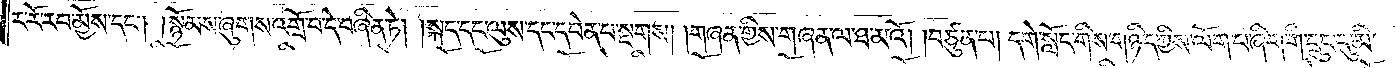ར་རོ་རབ་མྱོས་དང༌། །སྙོམས་ཞུགས་འགྲོ་བ་དེ་བཞིན་ཏེ། །སྐད་དང་ལུས་དང་དབེན་པ་སྔགས། །གཞན་གྱིས་གཞན་ལ་ཐ་མའོ། །བཙུན་པ། དགེ་སློང་གིས་གཉིད་ཀྱིས་ལོག་པ་ཞིག་གི་དྲུང་དུ་མི་
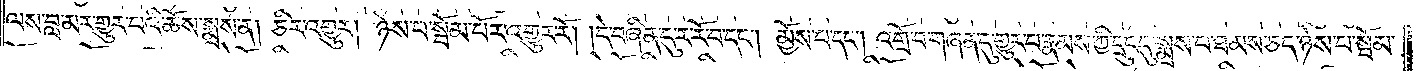ལས་བླ་མར་གྱུར་པའི་ཆོས་སྨྲས་ན། ཅིར་འགྱུར། ཉེས་པ་སྦོམ་པོར་འགྱུར་རོ། །དེ་བཞིན་དུ་ར་རོ་བ་དང༌། མྱོས་པ་དང༌། འགྲོ་བ་གཞན་དུ་གྱུར་པ་རྣམས་ཀྱི་དྲུང་དུ་སྨྲས་པ་ཐམས་ཅད་ཉེས་པ་སྦོམ་
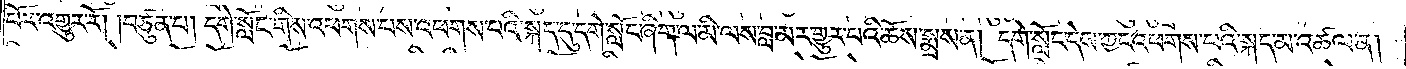པོར་འགྱུར་རོ། །བཙུན་པ། དགེ་སློང་གིས་འཕགས་པས་འཕགས་པའི་སྐད་དུ་དགེ་སློང་ཞིག་ལ་མི་ལས་བླ་མར་གྱུར་པའི་ཆོས་སྨྲས་ན། དགེ་སློང་དེས་ཀྱང་འཕགས་པའི་སྐད་མ་འཚལ་ན།
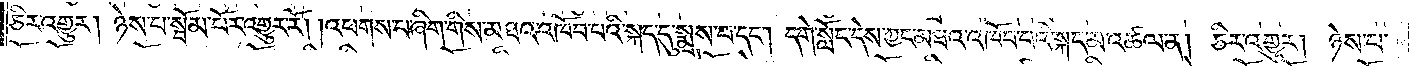ཅིར་འགྱུར། ཉེས་པ་སྦོམ་པོར་འགྱུར་རོ། །འཕགས་པ་ཞིག་གིས་མཐའ་འཁོབ་པའི་སྐད་དུ་སྨྲས་པ་དང༌། དགེ་སློང་དེས་ཀྱང་མཐའ་འཁོབ་པའི་སྐད་མ་འཚལ་ན། ཅིར་འགྱུར། ཉེས་པ་
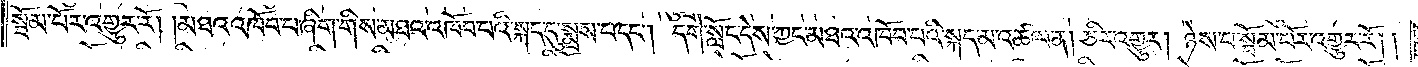སྦོམ་པོར་འགྱུར་རོ། །མཐའ་འཁོབ་པ་ཞིག་གིས་མཐའ་འཁོབ་པའི་སྐད་དུ་སྨྲས་པ་དང༌། དགེ་སློང་དེས་ཀྱང་མཐའ་འཁོབ་པའི་སྐད་མ་འཚལ་ན། ཅིར་འགྱུར། ཉེས་པ་སྦོམ་པོར་འགྱུར་རོ། །
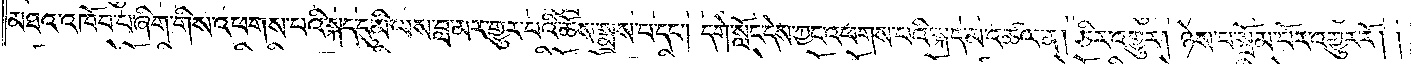མཐའ་འཁོབ་པ་ཞིག་གིས་འཕགས་པའི་སྐད་དུ་མི་ལས་བླ་མར་གྱུར་པའི་ཆོས་སྨྲས་པ་དང༌། དགེ་སློང་དེས་ཀྱང་འཕགས་པའི་སྐད་མ་འཚལ་ན། ཅིར་འགྱུར། ཉེས་པ་སྦོམ་པོར་འགྱུར་རོ། །
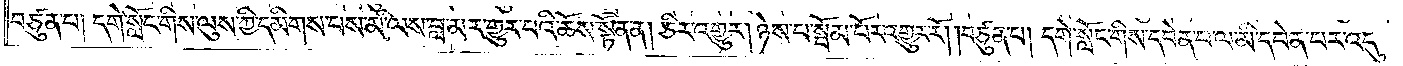བཙུན་པ། དགེ་སློང་གིས་ལུས་ཀྱི་དམིགས་པས་མི་ལས་བླ་མར་གྱུར་པའི་ཆོས་སྟོན་ན། ཅིར་གྱུར། ཉེས་པ་སྦོམ་པོར་འགྱུར་རོ། །བཙུན་པ། དགེ་སློང་གིས་དབེན་པ་ལ་མི་དབེན་པར་འདུ་
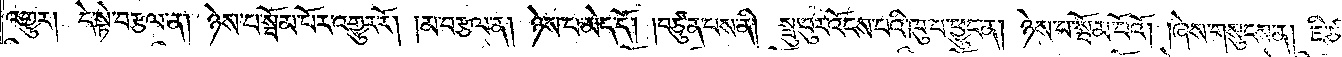འགྱུར། དེ་སྟེ་བརྩལ་ན། ཉེས་པ་སྦོམ་པོར་འགྱུར་རོ། །མ་བརྩལ་ན། ཉེས་པ་མེད་དོ། །བཙུན་པས་ནི། སྤུ་བུར་འོངས་པའི་ཁུ་པ་ཕྱུང་ན། ཉེས་པ་སྦོམ་པོའོ། །ཞེས་གསུངས་ན། ཇི་ཙམ་
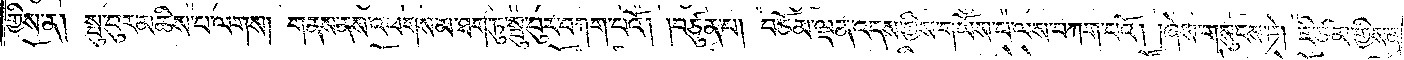གྱིས་ན། སྦུ་བུར་མཆིས་པ་ལགས། གནས་ནས་འཕགས་མ་ཐག་ཏུ་སྦུ་བུར་བཀག་པའོ། །བཙུན་པ། བཅོམ་ལྡན་འདས་ཀྱིས་གཡོས་པ་ལས་བཀག་པའོ། །ཞེས་གསུངས་ཏེ། ཇི་ཙམ་གྱིས་ན་
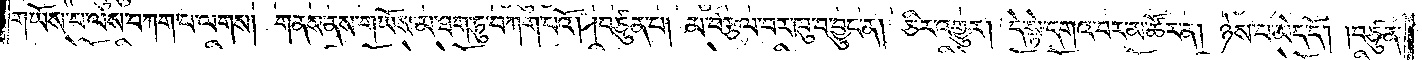གཡོས་པ་ལས་བཀག་པ་ལགས། གནས་ནས་གཡོས་མ་ཐག་ཏུ་བཀག་པའོ། །བཙུན་པ། མ་བརྩལ་བར་ཁུ་བ་བྱུང་ན། ཅིར་འགྱུར། དེ་སྟེ་དགའ་བར་མ་ཚོར་ན། ཉེས་པ་མེད་དོ། །བཙུན་
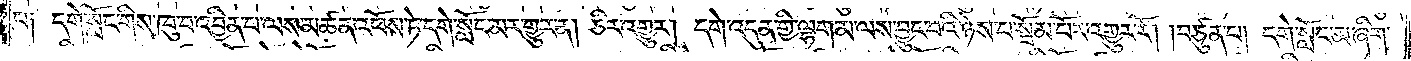པ༑ དགེ་སློང་གིས་ཁུ་བ་འབྱིན་པ་ལས་མཚན་འཕོས་ཏེ་དགེ་སློང་མར་གྱུར་ན། ཅིར་འགྱུར། དགེ་འདུན་གྱི་ལྷག་མ་ལས་བྱུང་བའི་ཉེས་པ་སྦོམ་པོར་འགྱུར་རོ། །བཙུན་པ། དགེ་སློང་མ་ཞིག་
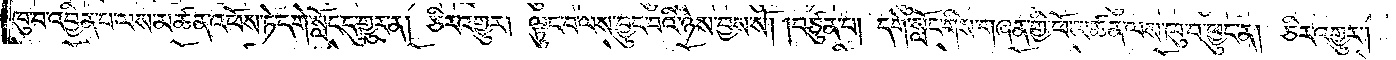ཁུ་བ་འབྱིན་པ་ལས་མཚན་འཕོས་ཏེ་དགེ་སློང་དུ་གྱུར་ན། ཅིར་འགྱུར། ལྟུང་བ་ལས་བྱུང་བའི་ཉེས་བྱས་སོ། །བཙུན་པ། དགེ་སློང་གིས་གཞན་གྱི་ཕོ་མཚན་ལས་ཁུ་བ་ཕྱུང་ན། ཅིར་འགྱུར།
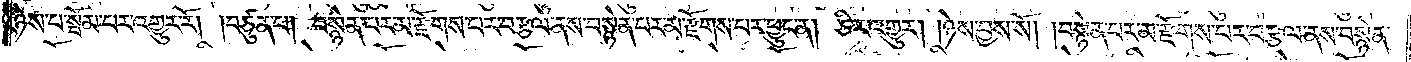ཉེས་པ་སྦོམ་པར་འགྱུར་རོ། །བཙུན་པ། བསྙེན་པར་མ་རྫོགས་པར་བརྩལ་ནས་བསྙེན་པར་མ་རྫོགས་པར་ཕྱུང་ན། ཅིར་འགྱུར། །ཉེས་བྱས་སོ། །བསྙེན་པར་མ་རྫོགས་པར་བརྩལ་ནས་བསྙེན་
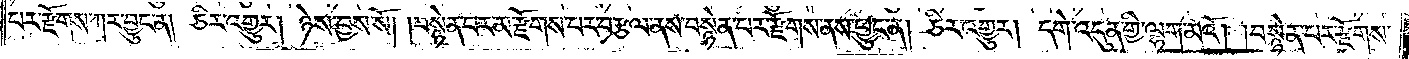པར་རྫོགས་ཀར་བྱུང་ན། ཅིར་འགྱུར། ཉེས་བྱས་སོ། །བསྙེན་པར་མ་རྫོགས་པར་བརྩལ་ནས་བསྙེན་པར་རྫོགས་ནས་ཕྱུང་ན། ཅིར་འགྱུར། དགེ་འདུན་གྱི་ལྷག་མའོ། །བསྙེན་པར་རྫོགས་
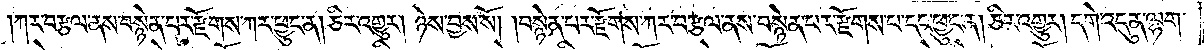།ཀར་བརྩལ་ནས་བསྙེན་པར་རྫོགས་ཀར་ཕྱུང་ན། ཅིར་འགྱུར། ཉེས་བྱས་སོ། །བསྙེན་པར་རྫོགས་ཀར་བརྩལ་ནས་བསྙེན་པར་རྫོགས་པ་དང་ཕྱུང་ན། ཅིར་འགྱུར། དགེ་འདུན་ལྷག་
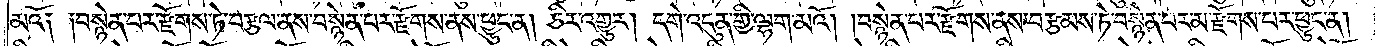མའོ༑ ༑བསྙེན་པར་རྫོགས་ཏེ་བརྩལ་ནས་བསྙེན་པར་རྫོགས་ནས་ཕྱུང་ན། ཅིར་འགྱུར། དགེ་འདུན་གྱི་ལྷག་མའོ། །བསྙེན་པར་རྫོགས་ནས་བརྩམས་ཏེ་བསྙེན་པར་མ་རྫོགས་པར་ཕྱུང་ན།
